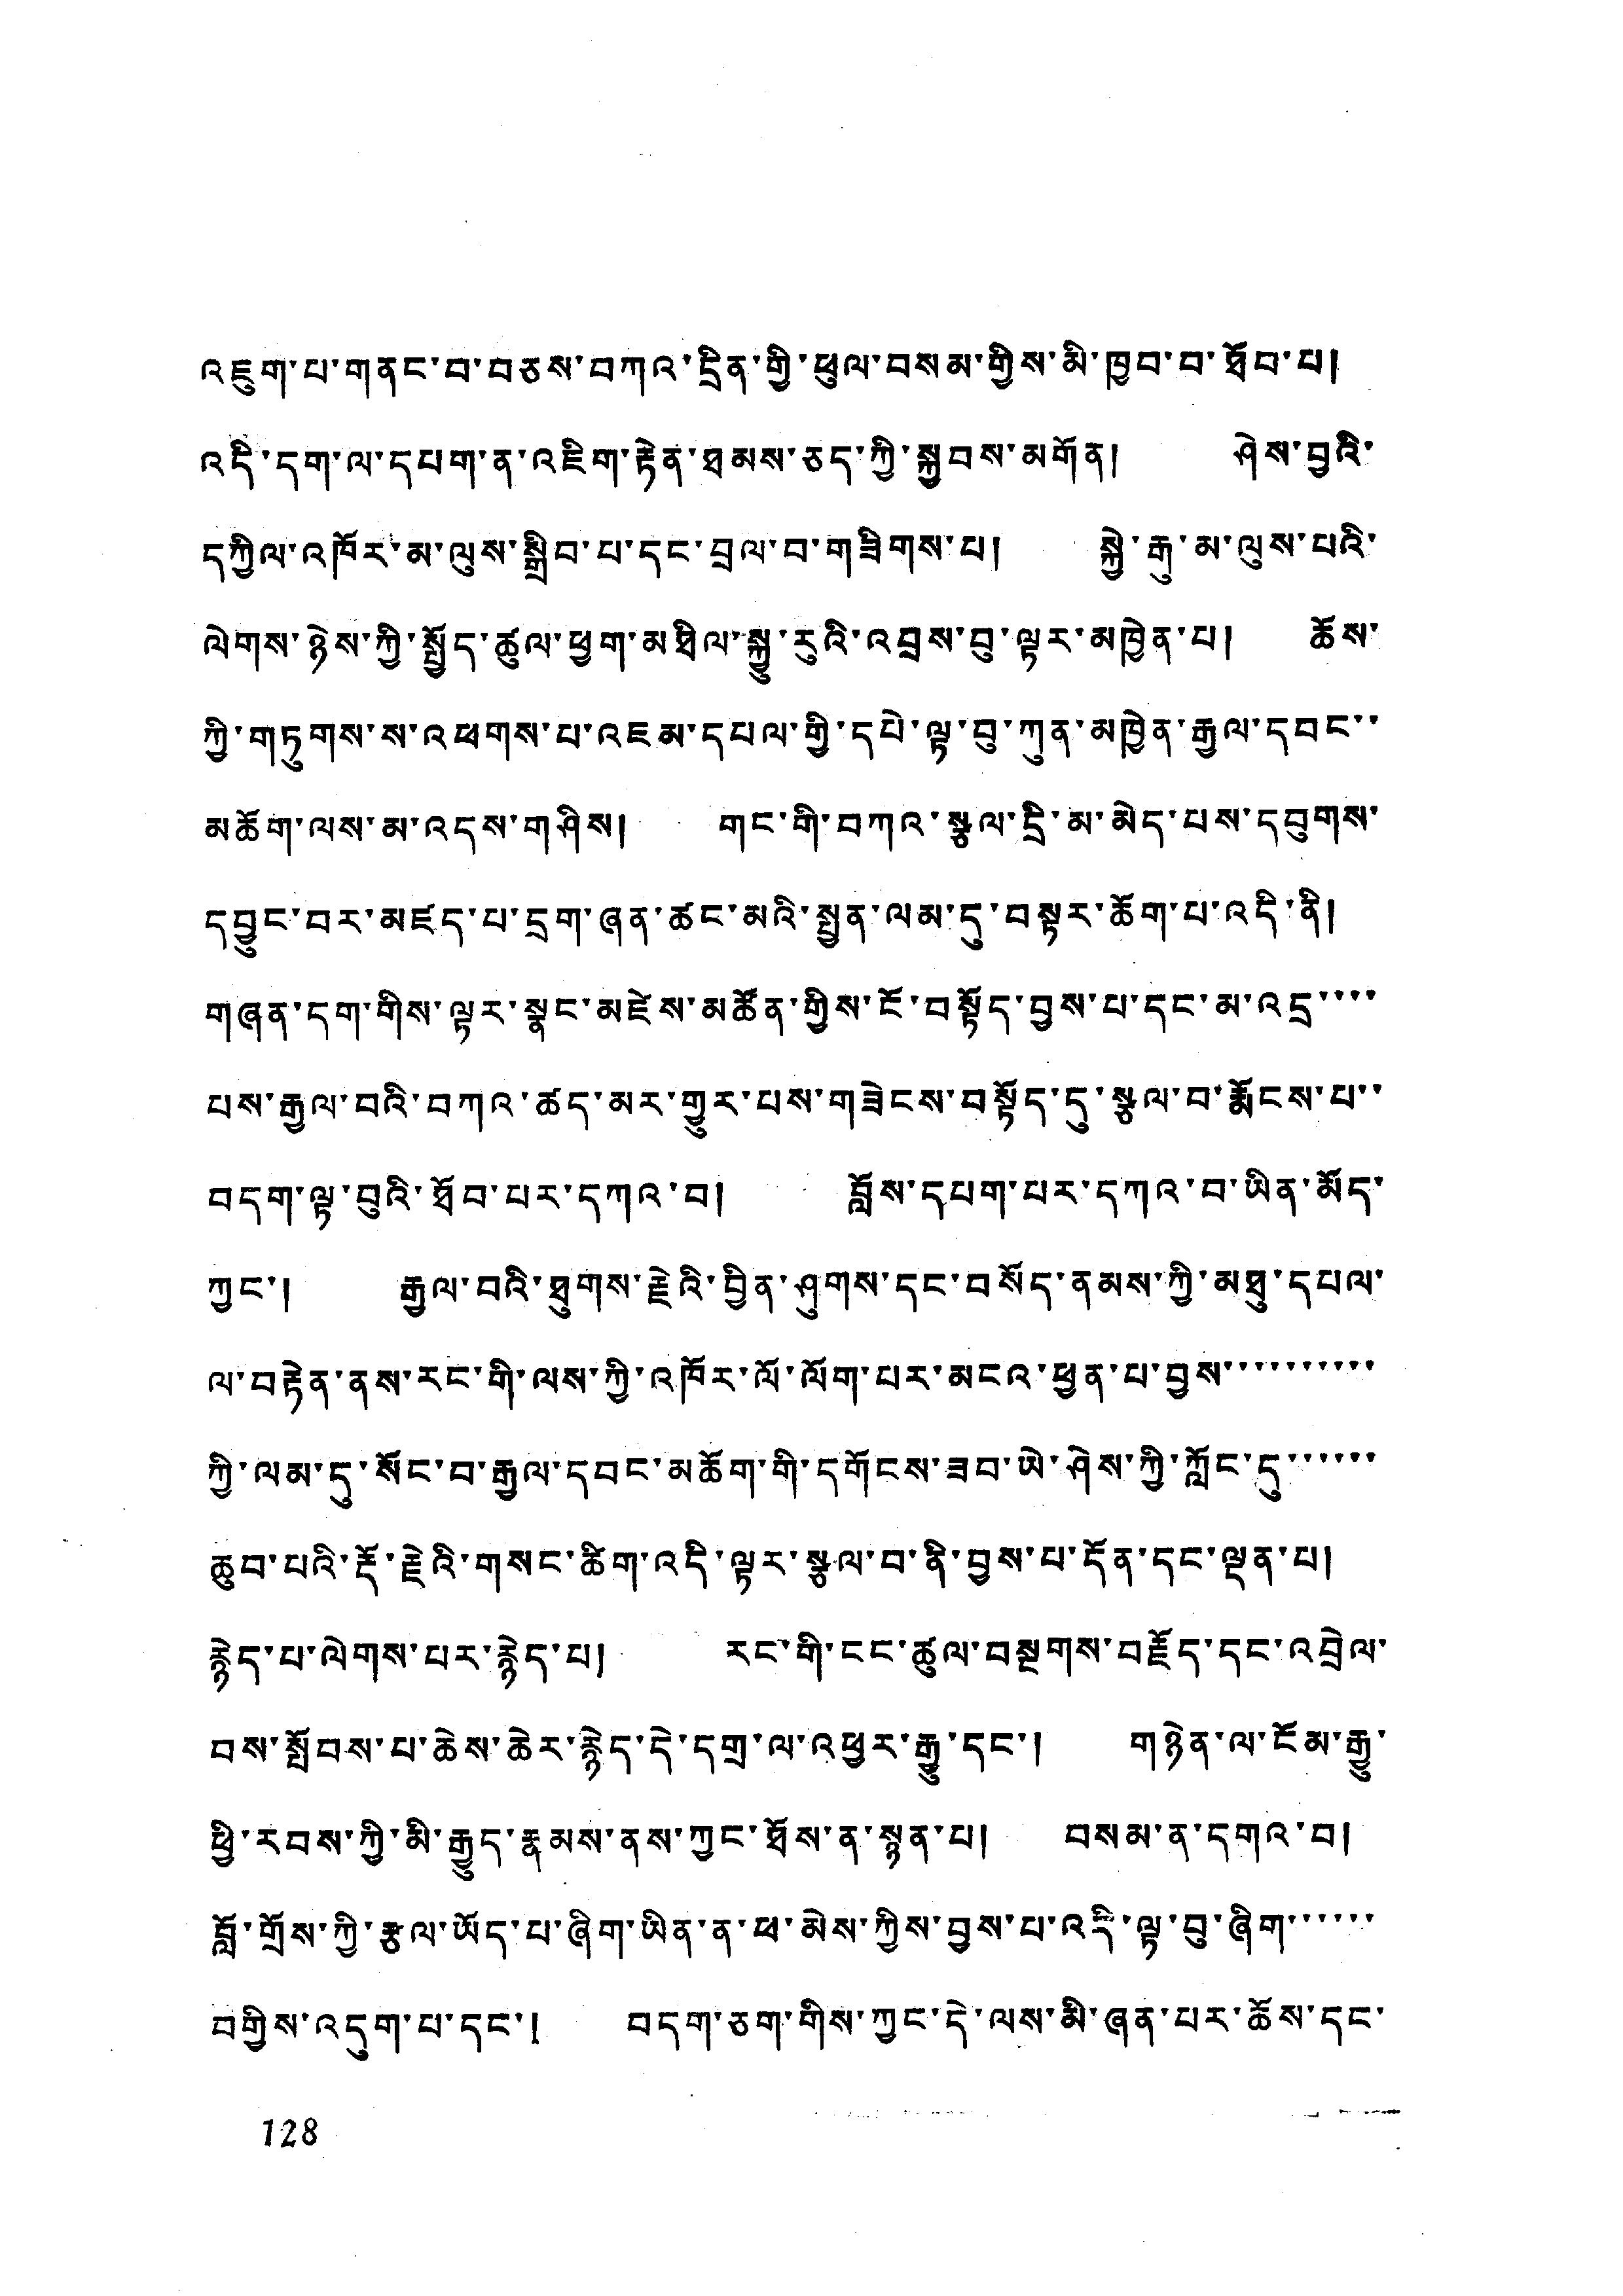འཇུག་པ་གནང་བ་བཅས་བཀའ་དྲིན་གྱི་ཕུལ་བསམ་གྱིས་མི་ཁྱབ་བ་ཐོབ་པ།
འདི་དག་ལ་དཔག་ན་འཇིག་རྟེན་ཐམས་ཅད་ཀྱི་སྐྱབས་མགོན། ཤེས་བྱའི་
དཀྱིལ་འཁོར་མ་ལུས་སྒྲིབ་པ་དང་བྲལ་བ་གཟིགས་པ། སྐྱེ་རྒུ་མ་ལུས་པའི་
ལེགས་ཉེས་ཀྱི་སྤྱོད་ཚུལ་ཕྱག་མཐིལ་སྐྱུ་རུའི་འབྲས་བུ་ལྟར་མཁྱེན་པ། ཆོས་
ཀྱི་གཏུགས་ས་འཕགས་པ་འཇམ་དཔལ་གྱི་དཔེ་ལྟ་བུ་ཀུན་མཁྱེན་རྒྱལ་དབང་་
མཆོག་ལས་མ་འདས་གཤིས། གང་གི་བཀའ་སྩལ་དྲི་མ་མེད་པས་དབུགས་
དབྱུང་བར་མཛད་པ་དྲག་ཞན་ཚང་མའི་སྤྱན་ལམ་དུ་བསྟར་ཆོག་པ་འདི་ནི།
གཞན་དག་གིས་ལྟར་སྣང་མཛེས་མཚོན་གྱིས་ངོ་བསྟོད་བྱས་པ་དང་མ་འདྲ་་་་
པས་རྒྱལ་བའི་བཀའ་ཚད་མར་གྱུར་པས་གཟེངས་བསྟོད་དུ་སྩལ་བ་རྨོངས་པ་་
བདག་ལྷ་བུའི་ཐོབ་པར་དཀའ་བ། སློས་དཔག་པར་དཀའ་བ་ཡིན་མོད་
ཀྱང་། རྒྱལ་བའི་ཐུགས་རྗེའི་བྱིན་ཤུགས་དང་བསོད་ནམས་ཀྱི་མཐུ་དཔལ་
ལ་བརྟེན་ནས་རང་གི་ལས་ཀྱི་འཁོར་ལོ་ལོག་པར་མངའ་ཕྱན་པ་བྱས་་་་་་་་་་
ཀྱི་ལམ་དུ་སོང་བ་རྒྱལ་དབང་མཆོག་གི་དགོངས་ཟབ་ཡེ་ཤེས་ཀྱི་ཀློང་དུ་་་་་་
ཆུབ་པའི་རྡོ་རྗེའི་གསང་ཚིག་འདི་ལྟར་སྩལ་བ་ནི་བྱས་པ་དོན་དང་ལྡན་པ།
རྟེད་པ་ལེགས་པར་རྙེད་པ། རང་གི་ངང་ཚུལ་བསྔགས་བརྗོད་དང་འབྲེལ་
བས་སློབས་པ་ཆེས་ཆེར་རྙེད་དེ་དགྲ་ལ་འཕྱར་རྒྱུ་དང་། གཉེན་ལ་ངོམ་རྒྱུ་
ཕྱི་རབས་ཀྱི་མི་རྒྱུད་རྣམས་ནས་ཀྱང་ཐོས་ན་སྙན་པ། བསམ་ན་དགའ་བ།
བློ་གྲོས་ཀྱི་རྩལ་ཡོད་པ་ཞིག་ཡིན་ན་ཕ་མེས་ཀྱིས་བྱས་པ་འདི་ལྟ་བུ་ཞིག་་་་་་
བགྱིས་འདུག་པ་དང་། བདག་ཅག་གིས་ཀྱང་དེ་ལས་མི་ཞན་པར་ཆོས་དང་
128
